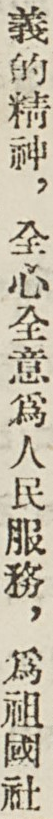義的精神，全心全意爲人民服務，爲祖國社
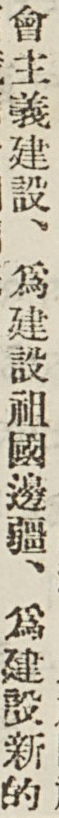會主義建設、爲建設祖國邊疆、爲建設新的
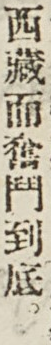西藏而奮鬥到底。
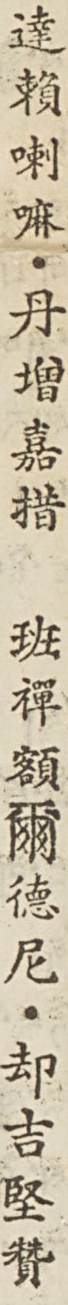達賴喇嘛・丹增嘉措 班禪額爾德尼・却吉堅贊
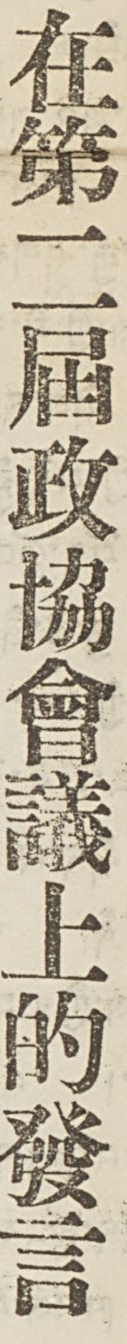在第二屆政協會議上的發言
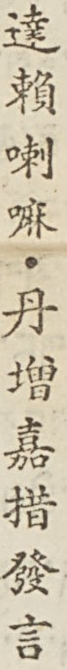達賴喇嘛・丹增嘉措發言
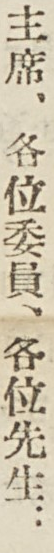主席、各爲委員、各位先生：
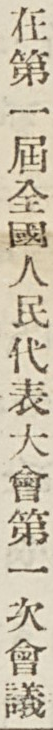在第一屆全國人民代表大會第一次會議
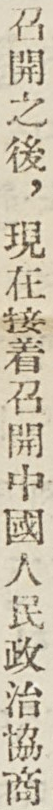召開之後，現在接着召開中國人民政治協商
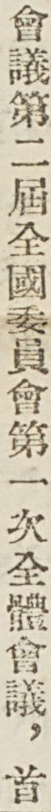會議第二屆全國委員會第一次全體會議，首
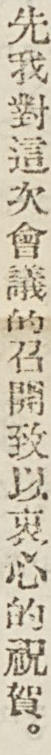先我對這次會議的召開致以衷心的祝賀。
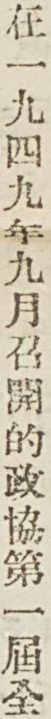在一九四九年九月召開的政協第一屆全
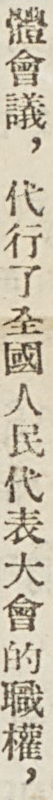體會議，代行了全國人民代表大會的職權，
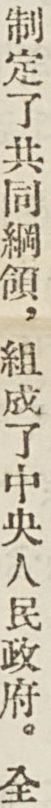制訂了共同綱領，組成了中央人民政府。全
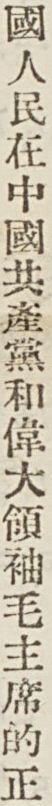國人民在中國共產黨和偉大領袖毛主席的正
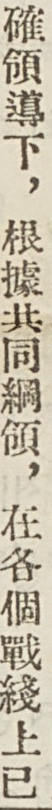確領導下，根據共同綱領，在各個戰綫上已
